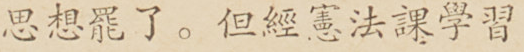思想罷了。但經憲法課學習
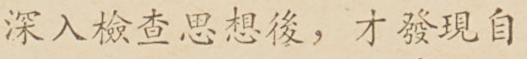深入檢查思想後，才發現自
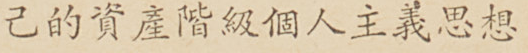己的資產階級個人主義思想
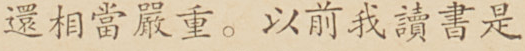還相當嚴重。以前我讀書是
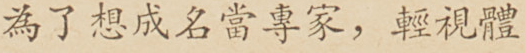為了想成名當專家，輕視體
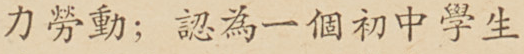力勞動；認為一個初中學生
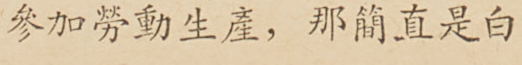參加勞動生產，那簡直是白
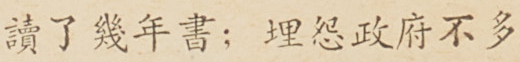讀了幾年書；埋怨政府不多
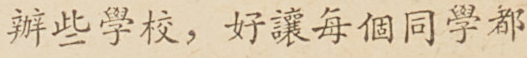辦些學校，好讓每個同學都
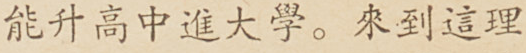能升高中進大學。來到這理
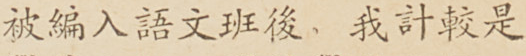被編入語文班後，我計較是
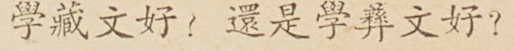學藏文好？還是學彝文好？
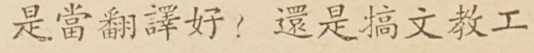是當翻譯好？還是搞文教工
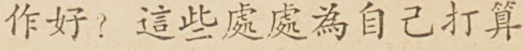作好？這些處處為自己打算
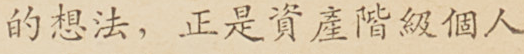的想法，正是資產階級個人
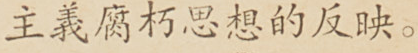主義腐朽思想的反映。
